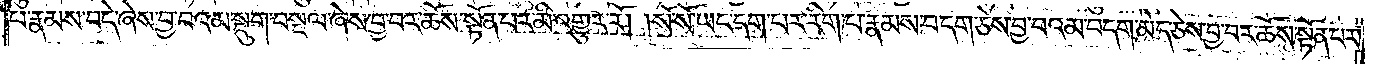པ་རྣམས་བདེ་ཞེས་བྱ་བའམ་སྡུག་བསྔལ་ཞེས་བྱ་བར་ཆོས་སྟོན་པར་མི་འགྱུར་རོ། །སོ་སོ་ཡང་དག་པར་རིག་པ་རྣམས་བདག་ཅེས་བྱ་བའམ་བདག་མེད་ཅེས་བྱ་བར་ཆོས་སྟོན་པར་
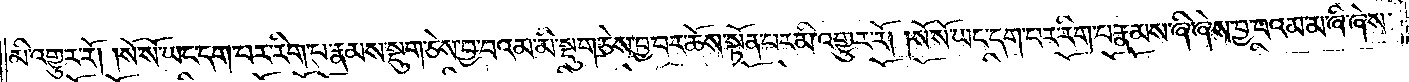མི་འགྱུར་རོ། །སོ་སོ་ཡང་དག་པར་རིག་པ་རྣམས་སྡུག་ཅེས་བྱ་བའམ་མི་སྡུག་ཅེས་བྱ་བར་ཆོས་སྟོན་པར་མི་འགྱུར་རོ། །སོ་སོ་ཡང་དག་པར་རིག་པ་རྣམས་ཞི་ཞེས་བྱ་བའམ་མ་ཞི་ཞེས་
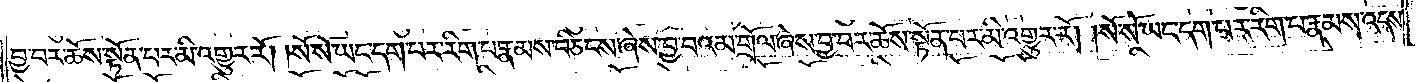བྱ་བར་ཆོས་སྟོན་པར་མི་འགྱུར་རོ། །སོ་སོ་ཡང་དག་པར་རིག་པ་རྣམས་བཅིངས་ཞེས་བྱ་བའམ་གྲོལ་ཞེས་བྱ་བར་ཆོས་སྟོན་པར་མི་འགྱུར་རོ། །སོ་སོ་ཡང་དག་པར་རིག་པ་རྣམས་འདས་
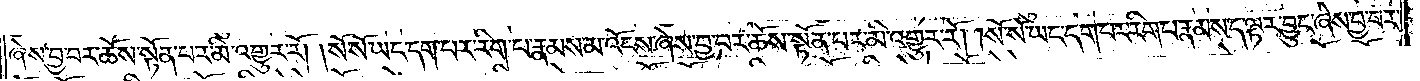ཞེས་བྱ་བར་ཆོས་སྟོན་བར་མི་འགྱུར་རོ། །སོ་སོ་ཡང་དག་པར་རིག་པ་རྣམས་མ་འོངས་ཞེས་བྱ་བར་ཆོས་སྟོན་པར་མི་འགྱུར་རོ། །སོ་སོ་ཡང་དག་པར་རིག་པ་རྣམས་ད་ལྟར་བྱུང་ཞེས་བྱ་བར་
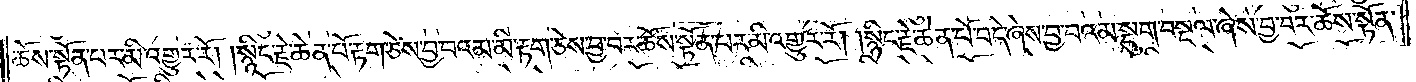ཆོས་སྟོན་པར་མི་འགྱུར་རོ། །སྙིང་རྗེ་ཆེན་པོ་རྟག་ཅེས་བྱ་བའམ་མི་རྟག་ཅེས་བྱ་བར་ཆོས་སྟོན་པར་མི་འགྱུར་རོ། །སྙིང་རྗེ་ཆེན་པོ་བདེ་ཞེས་བྱ་བའམ་སྡུག་བསྔལ་ཞེས་བྱ་བར་ཆོས་སྟོན་
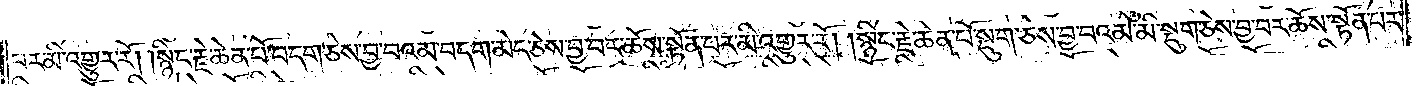པར་མི་འགྱུར་རོ། །སྙིང་རྗེ་ཆེན་པོ་བདག་ཅེས་བྱ་བའམ་བདག་མེད་ཅེས་བྱ་བར་ཆོས་སྟོན་པར་མི་འགྱུར་རོ། །སྙིང་རྗེ་ཆེན་པོ་སྡུག་ཅེས་བྱ་བའམ་མི་སྡུག་ཅེས་བྱ་བར་ཆོས་སྟོན་པར་
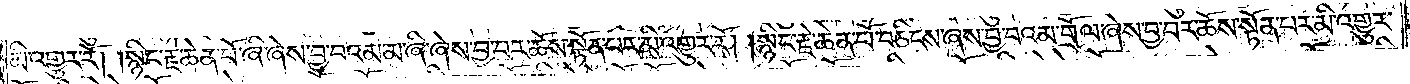མི་འགྱུར་རོ། །སྙིང་རྗེ་ཆེན་པོ་ཞི་ཞེས་བྱ་བའམ་མ་ཞི་ཞེས་བྱ་བར་ཆོས་སྟོན་པར་མི་འགྱུར་རོ། །སྙིང་རྗེ་ཆེན་པོ་བཅིངས་ཞེས་བྱ་བའམ་གྲོལ་ཞེས་བྱ་བར་ཆོས་སྟོན་པར་མི་འགྱུར་
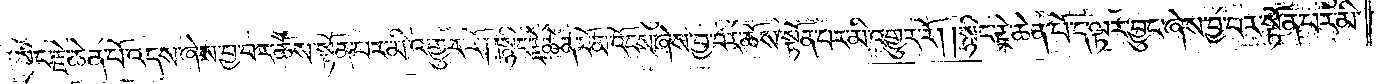༑སྙིང་རྗེ་ཆེན་པོ་འདས་ཞེས་བྱ་བར་ཆོས་སྟོན་པར་མི་འགྱུར་རོ། །སྙིང་རྗེ་ཆེན་པོ་མ་འོངས་ཞེས་བྱ་བར་ཆོས་སྟོན་པར་མི་འགྱུར་རོ། །སྙིང་རྗེ་ཆེན་པོ་ད་ལྟར་བྱུང་ཞེས་བྱ་བར་ཆོས་སྟོན་པར་མི་
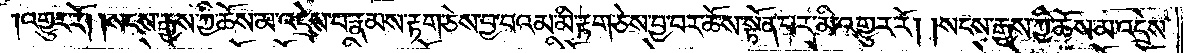འགྱུར་རོ། །སངས་རྒྱས་ཀྱི་ཆོས་མ་འདྲེས་པ་རྣམས་རྟག་ཅེས་བྱ་བའམ་མི་རྟག་ཅེས་བྱ་བར་ཆོས་སྟོན་པར་མི་འགྱུར་རོ། །སངས་རྒྱས་ཀྱི་ཆོས་མ་འདྲེས་
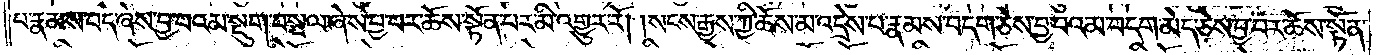པ་རྣམས་བདེ་ཞེས་བྱ་བའམ་སྡུག་བསྔལ་ཞེས་བྱ་བར་ཆོས་སྟོན་པར་མི་འགྱུར་རོ། །སངས་རྒྱས་ཀྱི་ཆོས་མ་འདྲེས་པ་རྣམས་བདག་ཅེས་བྱ་བའམ་བདག་མེད་ཅེས་བྱ་བར་ཆོས་སྟོན་
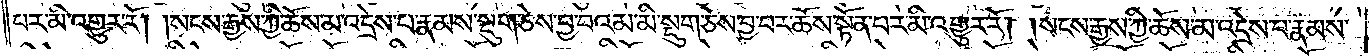པར་མི་འགྱུར་རོ། །སངས་རྒྱས་ཀྱི་ཆོས་མ་འདྲེས་པ་རྣམས་སྡུག་ཅེས་བྱ་བའམ་མི་སྡུག་ཅེས་བྱ་བར་ཆོས་སྟོན་པར་མི་འགྱུར་རོ། །སངས་རྒྱས་ཀྱི་ཆོས་མ་འདྲེས་པ་རྣམས་
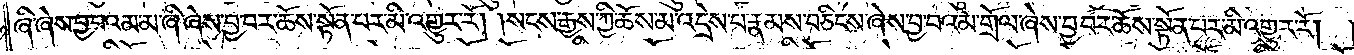ཞི་ཞེས་བྱ་བའམ་མ་ཞི་ཞེས་བྱ་བར་ཆོས་སྟོན་པར་མི་འགྱུར་རོ། །སངས་རྒྱས་ཀྱི་ཆོས་མ་འདྲེས་པ་རྣམས་བཅིངས་ཞེས་བྱ་བའམ་གྲོལ་ཞེས་བྱ་བར་ཆོས་སྟོན་པར་མི་འགྱུར་རོ། །
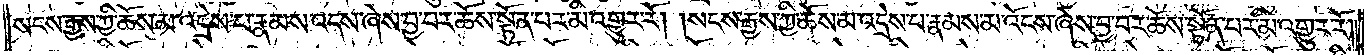སངས་རྒྱས་ཀྱི་ཆོས་མ་འདྲེས་པ་རྣམས་འདས་ཞེས་བྱ་བར་ཆོས་སྟོན་པར་མི་འགྱུར་རོ། །སངས་རྒྱས་ཀྱི་ཆོས་མ་འདྲེས་པ་རྣམས་མ་འོངས་ཞེས་བྱ་བར་ཆོས་སྟོན་པར་མི་འགྱུར་རོ། །
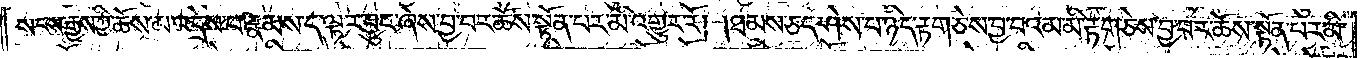སངས་རྒྱས་ཀྱི་ཆོས་མ་འདྲེས་པ་རྣམས་ད་ལྟར་བྱུང་ཞེས་བྱ་བར་ཆོས་སྟོན་པར་མི་འགྱུར་རོ། །ཐམས་ཅད་ཤེས་པ་ཉིད་རྟག་ཅེས་བྱ་བའམ་མི་རྟག་ཅེས་བྱ་བར་ཆོས་སྟོན་པར་མི་
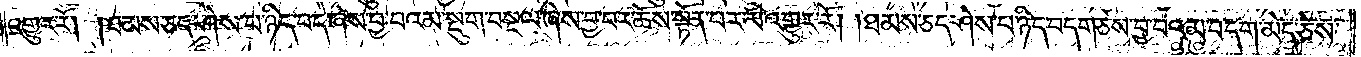འགྱུར་རོ། །ཐམས་ཅད་ཤེས་པ་ཉིད་བདེ་ཞེས་བྱ་བའམ་སྡུག་བསྔལ་ཞེས་བྱ་བར་ཆོས་སྟོན་པར་མི་འགྱུར་རོ། །ཐམས་ཅད་ཤེས་པ་ཉིད་བདག་ཅེས་བྱ་བའམ་བདག་མེད་ཅེས་
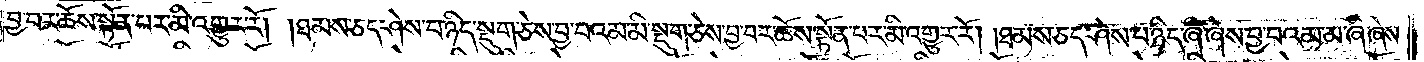བྱ་བར་ཆོས་སྟོན་པར་མི་འགྱུར་རོ། །ཐམས་ཅད་ཤེས་པ་ཉིད་སྡུག་ཅེས་བྱ་བའམ་མི་སྡུག་ཅེས་བྱ་བར་ཆོས་སྟོན་པར་མི་འགྱུར་རོ། །ཐམས་ཅད་ཤེས་པ་ཉིད་ཞི་ཞེས་བྱ་བའམ་མ་ཞི་ཞེས་
